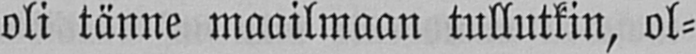oli tänne maailmaan tullutkin, ol-
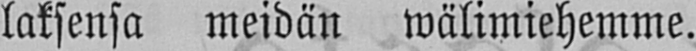laksensa meidän wälimiehemme.
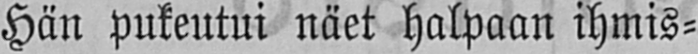Hän pukeutui näet halpaan ihmis-
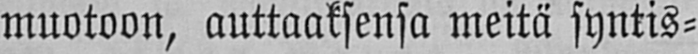muotoon, auttaaksensa meitä syntis-
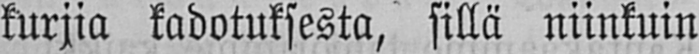kurjia kadotuksesta, sillä niinkuin
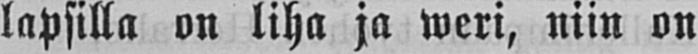lapsilla on liha ja weri, niin on
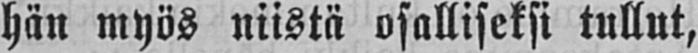hän myös niistä osalliseksi tullut,
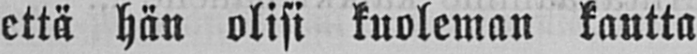että hän olisi kuoleman kautta
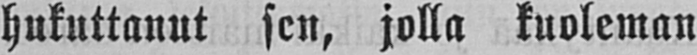hukuttanut sen, jolla kuoleman
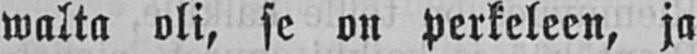walta oli, se on perkeleen, ja
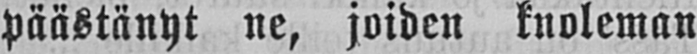päästänyt ne, joiden kuoleman
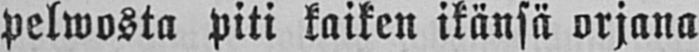pelwosta piti kaiken ikänsä orjana
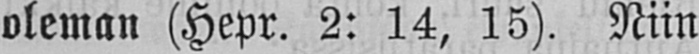oleman (Hepr. 2: 14, 15). Niin
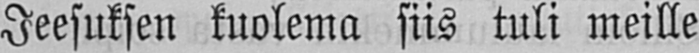Jeesuksen kuolema siis tuli meille
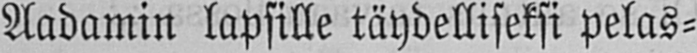Aadamin lapsille täydelliseksi pelas-
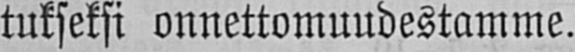tukseksi onnettomuudestamme.
